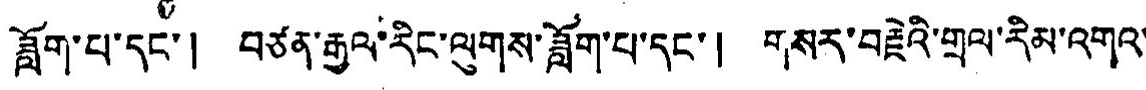ཟློག་པ་དང་། བཙན་རྒྱལ་རིང་ལུགས་ཟློག་པ་དང་། གསར་བརྗེའི་གྲལ་རིམ་འགའ་
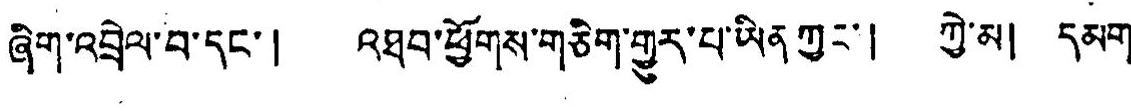ཞིག་འབྲེལ་བ་དང་། འཐབ་ཕྱོགས་གཅིག་གྱུར་པ་ཡིནཀྱང་། ཀྱེ་མ། དམག་
